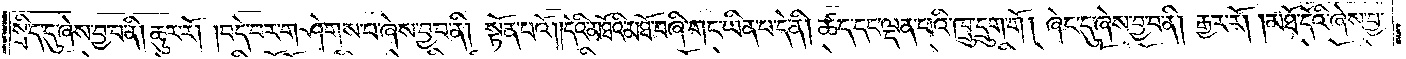སྲིད་དུ་ཞེས་བྱ་བ་ནི། ཆུར་རོ། །བདེ་བར་གཤེགས་པ་ཞེས་བྱ་བ་ནི། སྟོན་པའོ། །དེའི་མཐོའི་མཐོ་བཞི་གང་ཡིན་པ་དེ་ནི། ཚད་དང་ལྡན་པའི་ཁྲུ་དྲུག་གོ། ཞེང་དུ་ཞེས་བྱ་བ་ནི། རྒྱར་རོ། །མཐོ་དོའི་ཞེས་བྱ་
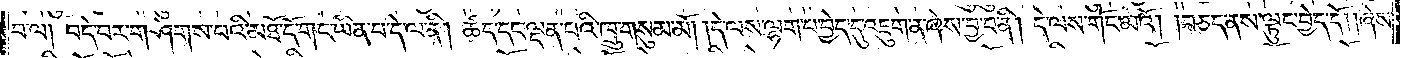བ་ལ། བདེ་བར་གཤེགས་པའི་མཐོ་དོ་གང་ཡིན་པ་དེ་ལ་ནི། ཚད་དང་ལྡན་པའི་ཁྲུ་གསུམ་མོ། །དེ་ལས་ལྷག་པ་བྱེད་དུ་འཇུག་ན་ཞེས་བྱ་བ་ནི། དེ་ལས་གོང་མའོ། །བཅད་ནས་ལྟུང་བྱེད་དོ། །ཞེས་
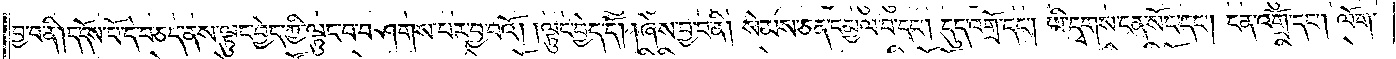བྱ་བ་ནི། དངོས་པོ་དེ་བཅད་ནས་ལྟུང་བྱེད་ཀྱི་ལྟུང་བ་བཤགས་པར་བྱ་བའོ། །ལྟུང་བྱེད་དོ། །ཞེས་བྱ་བ་ནི། སེམས་ཅན་དམྱལ་བ་དང༌། དུད་འགྲོ་དང༌། ཡི་དྭགས་ངན་སོང་དང༌། ངན་འགྲོ་དང༌། ལོག་
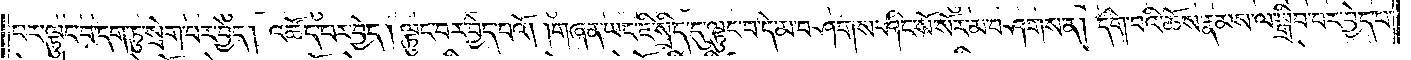པར་ལྟུང་བ་དག་ཏུ་སྲེག་པར་བྱེད། འཚོད་པར་བྱེད། ལྟུང་བར་བྱེད་པའོ། །གཞན་ཡང་ཇི་སྲིད་དུ་ལྟུང་བ་དེ་མ་བཤགས་ཤིང་སོ་སོར་མ་བཤགས་ན། དགེ་བའི་ཆོས་རྣམས་ལ་སྒྲིབ་པར་བྱེད་པ་
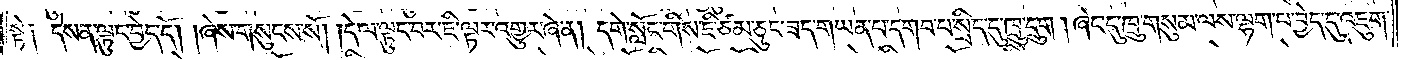སྟེ༑ དེས་ན་ལྟུང་བྱེད་དོ། །ཞེས་གསུངས་སོ། །དེ་ལ་ལྟུང་བར་ཇི་ལྟར་འགྱུར་ཞེ་ན། དགེ་སློང་གིས་ཇི་ཙམ་ཅུང་ཟད་གཡན་པ་དགབ་པ་སྲིད་དུ་ཁྲུ་དྲུག། ཞེང་དུ་ཁྲུ་གསུམ་ལས་ལྷག་པ་བྱེད་དུ་འཇུག་
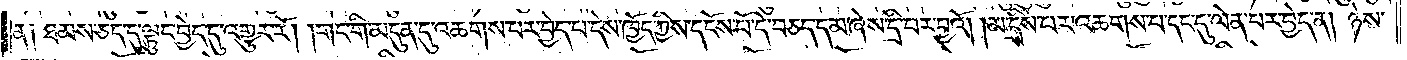ན༑ ཐམས་ཅད་དུ་ལྟུང་བྱེད་དུ་འགྱུར་རོ། །གང་གི་མདུན་དུ་འཆགས་པར་བྱེད་པ་དེས་ཁྱོད་ཀྱིས་དངོས་པོ་དེ་བཅད་དམ་ཞེས་དྲི་བར་བྱའོ། །མ་དྲིས་པར་འཆགས་པ་དང་དུ་ལེན་པར་བྱེད་ན། ཉེས་
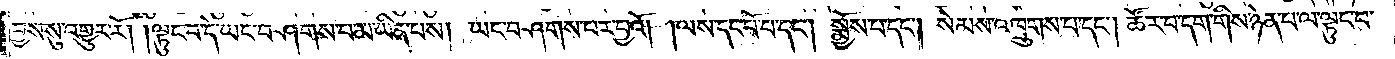བྱས་སུ་འགྱུར་རོ། །ལྟུང་བ་དེ་ཡང་བཤགས་པ་མ་ཡིན་པས། ཡང་བཤགས་པར་བྱའོ། །ལས་དང་པོ་པ་དང༌། སྨྱོས་པ་དང༌། སེམས་འཁྲུགས་པ་དང༌། ཚོར་བ་དག་གིས་ཉེན་པ་ལ་ལྟུང་བ་
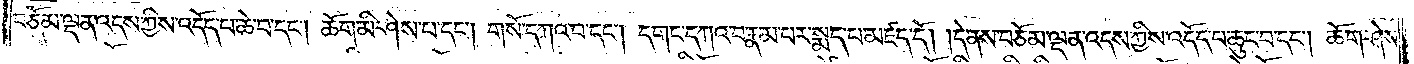བཅོམ་ལྡན་འདས་ཀྱིས་འདོད་པ་ཆེ་བ་དང༌། ཆོག་མི་ཤེས་པ་དང༌། གསོ་དཀའ་བ་དང༌། དགང་དཀའ་བ་རྣམ་པར་སྨད་པ་མཛད་དོ། །དེ་ནས་བཅོམ་ལྡན་འདས་ཀྱིས་འདོད་པ་ཆུང་བ་དང༌། ཆོག་ཤེས་
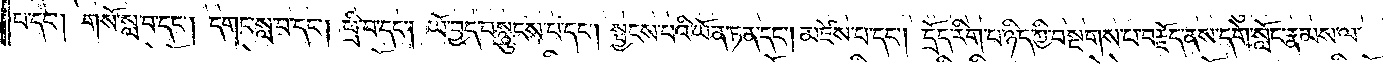པ་དང༌། གསོ་སླ་བ་དང༌། དགང་སླ་བ་དང༌། ཕྲི་བ་དང༌། ཡོ་བྱད་བསྙུངས་པ་དང༌། སྦྱངས་པའི་ཡོན་ཏན་དང༌། མཛེས་པ་དང༌། དྲོད་རིག་པ་ཉིད་ཀྱི་བསྔགས་པ་བརྗོད་ནས་དགེ་སློང་རྣམས་ལ་
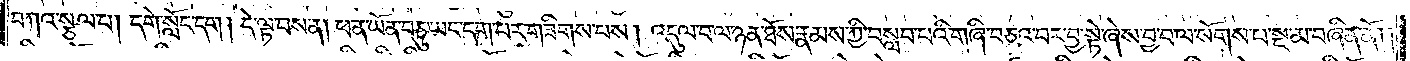བཀའ་སྩལ་པ། དགེ་སློང་དག། དེ་ལྟ་བས་ན། ཕན་ཡོན་བཅུ་ཡང་དག་པར་གཟིགས་པས། འདུལ་བ་ལ་ཉན་ཐོས་རྣམས་ཀྱི་བསླབ་པའི་གཞི་བཅའ་བར་བྱ་སྟེ་ཞེས་བྱ་བ་ལ་སོགས་པ་སྔ་མ་བཞིན་ནོ། །
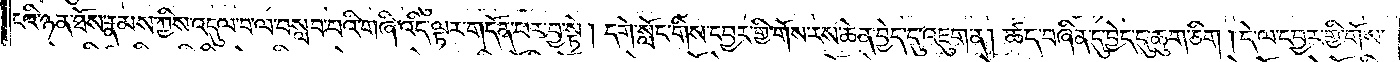ངའི་ཉན་ཐོས་རྣམས་ཀྱིས་འདུལ་བ་ལ་བསླབ་པའི་གཞི་འདི་ལྟར་གདོན་པར་བྱ་སྟེ། དགེ་སློང་གིས་དབྱར་གྱི་གོས་རས་ཆེན་བྱེད་དུ་འཇུག་ན། ཚད་བཞིན་དུ་བྱེད་དུ་ཆུག་ཅིག །དེ་ལ་དབྱར་གྱི་གོས་
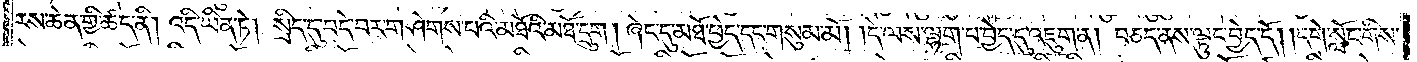རས་ཆེན་གྱི་ཚད་ནི། འདི་ཡིན་ཏེ། སྲིད་དུ་བདེ་བར་གཤེགས་པའི་མཐོའི་མཐོ་དྲུག། ཞེང་དུ་མཐོ་ཕྱེད་དང་གསུམ་མོ། །དེ་ལས་ལྷག་པ་བྱེད་དུ་འཇུག་ན། བཅད་ནས་ལྟུང་བྱེད་དོ། །དགེ་སློང་གིས་
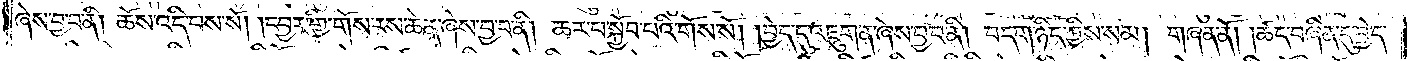ཞེས་བྱ་བ་ནི། ཆོས་འདི་པས་སོ། །དབྱར་གྱི་གོས་རས་ཆེན་ཞེས་བྱ་བ་ནི། ཆར་པ་སྐྱོབ་པའི་གོས་སོ། །བྱེད་དུ་འཇུག་ན་ཞེས་བྱ་བ་ནི། བདག་ཉིད་ཀྱིས་སམ། གཞན་ནོ། །ཚད་བཞིན་དུ་བྱེད་
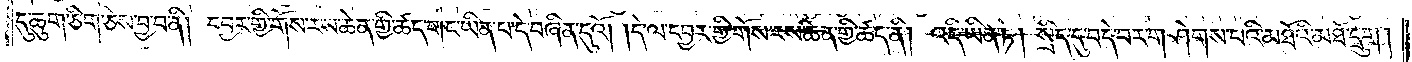དུ་ཆུག་ཅིག་ཅེས་བྱ་བ་ནི། དབྱར་གྱི་གོས་རས་ཆེན་གྱི་ཚད་གང་ཡིན་པ་དེ་བཞིན་དུའོ། །དེ་ལ་དབྱར་གྱི་གོས་རས་ཆེན་གྱི་ཚད་ནི། འདི་ཡིན་ཏེ། སྲིད་དུ་བདེ་བར་གཤེགས་པའི་མཐོའི་མཐོ་དྲུག་
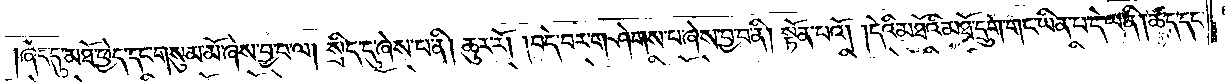ཞེང་དུ་མཐོ་ཕྱེད་དང་གསུམ་མོ་ཞེས་བྱ་བ་ལ། སྲིད་དུ་ཞེས་པ་ནི། ཆུར་རོ། །བདེ་བར་གཤེགས་པ་ཞེས་བྱ་བ་ནི། སྟོན་པའོ། །དེའི་མཐོའི་མཐོ་དྲུག་གང་ཡིན་པ་དེ་ལ་ནི། ཚད་དང་
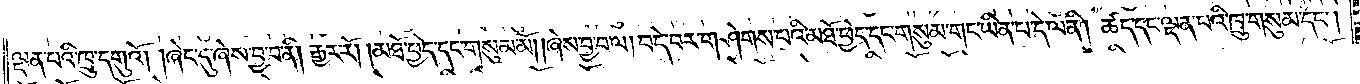ལྡན་པའི་ཁྲུ་དགུའོ། །ཞེང་དུ་ཞེས་བྱ་བ་ནི། རྒྱར་རོ། །མཐོ་ཕྱེད་དང་གསུམ་མོ། །ཞེས་བྱ་བ་ལ། བདེ་བར་གཤེགས་པའི་མཐོ་ཕྱེད་དང་གསུམ་གང་ཡིན་པ་དེ་ལ་ནི། ཚད་དང་ལྡན་པའི་ཁྲུ་གསུམ་དང༌།
